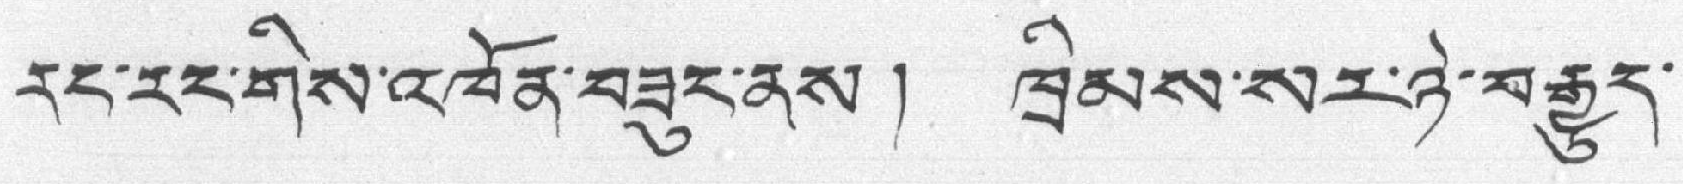རང་རང་གིས་འཁོན་བཟུང་ནས། ཁྲིམས་སར་ཉེ་བརྒྱུད་
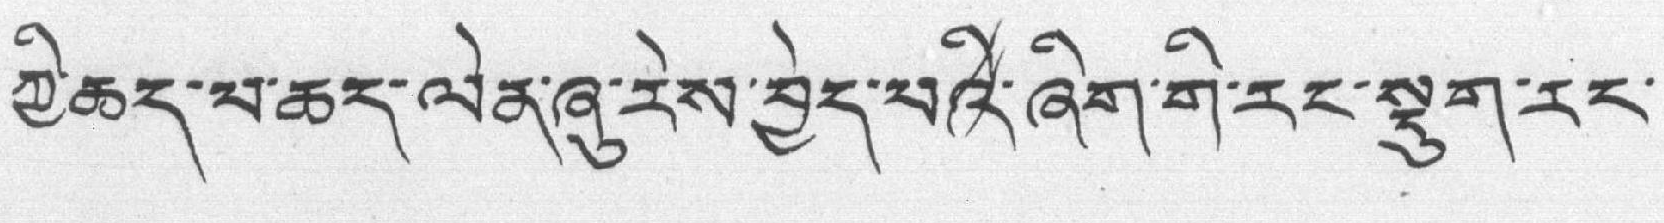ཀྱི་ཆད་ལ་ཆད་ལེན་ཞུ་རེས་བྱེད་པའི་ཞིག་གི་རང་སྡུག་རང་
